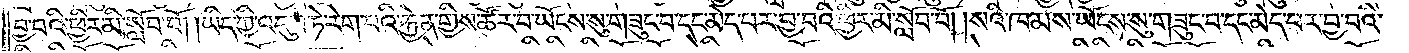བྱ་བའི་ཕྱིར་མི་སློབ་བོ། །ཡིད་ཀྱི་འདུས་ཏེ་རེག་པའི་རྐྱེན་གྱིས་ཚོར་བ་ཡོངས་སུ་གཟུང་བ་དང་མེད་པར་བྱ་བའི་ཕྱིར་མི་སློབ་བོ། །སའི་ཁམས་ཡོངས་སུ་གཟུང་བ་དང་མེད་པར་བྱ་བའི་
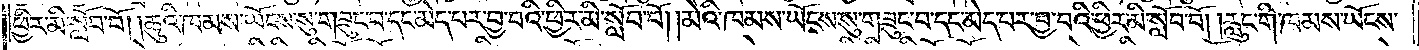ཕྱིར་མི་སློབ་བོ། །ཆུའི་ཁམས་ཡོངས་སུ་གཟུང་བ་དང་མེད་པར་བྱ་བའི་ཕྱིར་མི་སློབ་བོ། །མེའི་ཁམས་ཡོངས་སུ་གཟུང་བ་དང་མེད་པར་བྱ་བའི་ཕྱིར་མི་སློབ་བོ། །རླུང་གི་ཁམས་ཡོངས་
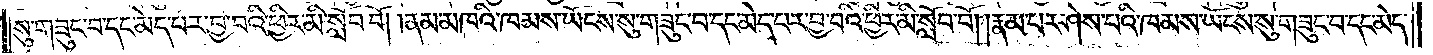སུ་གཟུང་བ་དང་མེད་པར་བྱ་བའི་ཕྱིར་མི་སློབ་བོ། །ནམ་མཁའི་ཁམས་ཡོངས་སུ་གཟུང་བ་དང་མེད་པར་བྱ་བའི་ཕྱིར་མི་སློབ་བོ། །རྣམ་པར་ཤེས་པའི་ཁམས་ཡོངས་སུ་གཟུང་བ་དང་མེད་
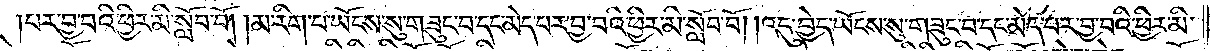པར་བྱ་བའི་ཕྱིར་མི་སློབ་བོ། །མ་རིག་པ་ཡོངས་སུ་གཟུང་བ་དང་མེད་པར་བྱ་བའི་ཕྱིར་མི་སློབ་བོ། །འདུ་བྱེད་ཡོངས་སུ་གཟུང་བ་དང་མེད་པར་བྱ་བའི་ཕྱིར་མི་
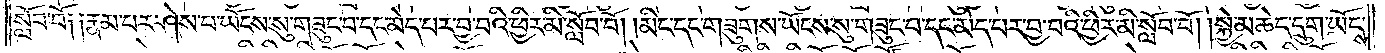སློབ་བོ། །རྣམ་པར་ཤེས་པ་ཡོངས་སུ་གཟུང་བ་དང་མེད་པར་བྱ་བའི་ཕྱིར་མི་སློབ་བོ། །མིང་དང་གཟུགས་ཡོངས་སུ་གཟུང་བ་དང་མེད་པར་བྱ་བའི་ཕྱིར་མི་སློབ་བོ། །སྐྱེ་མཆེད་དྲུག་ཡོངས་
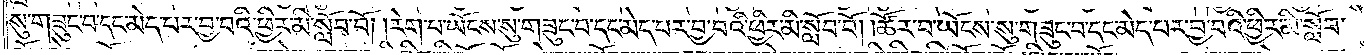སུ་གཟུང་བ་དང་མེད་པར་བྱ་བའི་ཕྱིར་མི་སློབ་བོ། །རེག་པ་ཡོངས་སུ་གཟུང་བ་དང་མེད་པར་བྱ་བའི་ཕྱིར་མི་སློབ་བོ། །ཚོར་བ་ཡོངས་སུ་གཟུང་བ་དང་མེད་པར་བྱ་བའི་ཕྱིར་མི་སློབ་
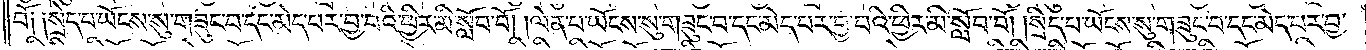བོ༑ ༑སྲེད་པ་ཡོངས་སུ་གཟུང་བ་དང་མེད་པར་བྱ་བའི་ཕྱིར་མི་སློབ་བོ། །ལེན་པ་ཡོངས་སུ་གཟུང་བ་དང་མེད་པར་བྱ་བའི་ཕྱིར་མི་སློབ་བོ། །སྲིད་པ་ཡོངས་སུ་གཟུང་བ་དང་མེད་པར་བྱ་
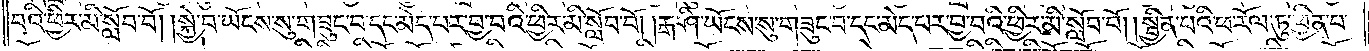བའི་ཕྱིར་མི་སློབ་བོ། །སྐྱེ་བ་ཡོངས་སུ་གཟུང་བ་དང་མེད་པར་བྱ་བའི་ཕྱིར་མི་སློབ་བོ། །རྒ་ཤི་ཡོངས་སུ་གཟུང་བ་དང་མེད་པར་བྱ་བའི་ཕྱིར་མི་སློབ་བོ། །སྦྱིན་པའི་ཕ་རོལ་ཏུ་ཕྱིན་པ་
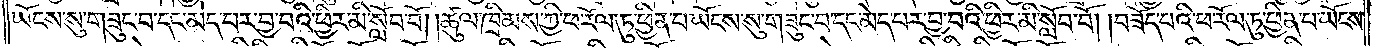ཡོངས་སུ་གཟུང་བ་དང་མེད་པར་བྱ་བའི་ཕྱིར་མི་སློབ་བོ། །ཚུལ་ཁྲིམས་ཀྱི་ཕ་རོལ་ཏུ་ཕྱིན་པ་ཡོངས་སུ་གཟུང་བ་དང་མེད་པར་བྱ་བའི་ཕྱིར་མི་སློབ་བོ། །བཟོད་པའི་ཕ་རོལ་ཏུ་ཕྱིན་པ་ཡོངས་
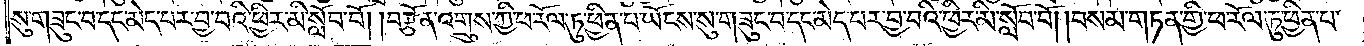སུ་གཟུང་བ་དང་མེད་པར་བྱ་བའི་ཕྱིར་མི་སློབ་བོ། །བརྩོན་འགྲུས་ཀྱི་ཕ་རོལ་ཏུ་ཕྱིན་པ་ཡོངས་སུ་གཟུང་བ་དང་མེད་པར་བྱ་བའི་ཕྱིར་མི་སློབ་བོ། །བསམ་གཏན་གྱི་ཕ་རོལ་ཏུ་ཕྱིན་པ་
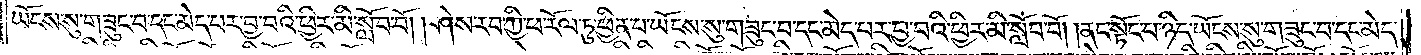ཡོངས་སུ་གཟུང་བ་དང་མེད་པར་བྱ་བའི་ཕྱིར་མི་སློབ་བོ། །ཤེས་རབ་ཀྱི་ཕ་རོལ་ཏུ་ཕྱིན་པ་ཡོངས་སུ་གཟུང་བ་དང་མེད་པར་བྱ་བའི་ཕྱིར་མི་སློབ་བོ། །ནང་སྟོང་པ་ཉིད་ཡོངས་སུ་གཟུང་བ་དང་མེད་
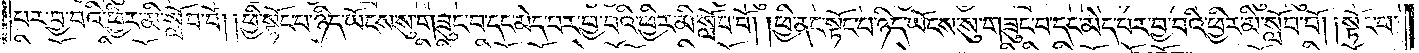པར་བྱ་བའི་ཕྱིར་མི་སློབ་བོ། །ཕྱི་སྟོང་པ་ཉིད་ཡོངས་སུ་གཟུང་བ་དང་མེད་པར་བྱ་བའི་ཕྱིར་མི་སློབ་བོ། །ཕྱི་ནང་སྟོང་པ་ཉིད་ཡོངས་སུ་གཟུང་བ་དང་མེད་པར་བྱ་བའི་ཕྱིར་མི་སློབ་བོ། །སྟོང་པ་
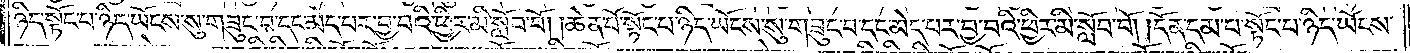ཉིད་སྟོང་པ་ཉིད་ཡོངས་སུ་གཟུང་བ་དང་མེད་པར་བྱ་བའི་ཕྱིར་མི་སློབ་བོ། །ཆེན་པོ་སྟོང་པ་ཉིད་ཡོངས་སུ་གཟུང་བ་དང་མེད་པར་བྱ་བའི་ཕྱིར་མི་སློབ་བོ། །དོན་དམ་པ་སྟོང་པ་ཉིད་ཡོངས་
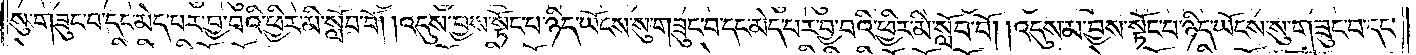སུ་གཟུང་བ་དང་མེད་པར་བྱ་བའི་ཕྱིར་མི་སློབ་བོ། །འདུས་བྱས་སྟོང་པ་ཉིད་ཡོངས་སུ་གཟུང་བ་དང་མེད་པར་བྱ་བའི་ཕྱིར་མི་སློབ་བོ། །འདུས་མ་བྱས་སྟོང་པ་ཉིད་ཡོངས་སུ་གཟུང་བ་དང་
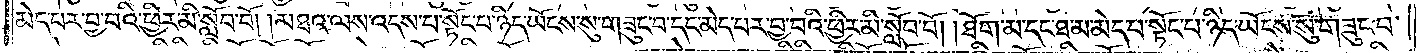མེད་པར་བྱ་བའི་ཕྱིར་མི་སློབ་བོ། །མཐའ་ལས་འདས་པ་སྟོང་པ་ཉིད་ཡོངས་སུ་གཟུང་བ་དང་མེད་པར་བྱ་བའི་ཕྱིར་མི་སློབ་བོ། །ཐོག་མ་དང་ཐ་མ་མེད་པ་སྟོང་པ་ཉིད་ཡོངས་སུ་གཟུང་བ་
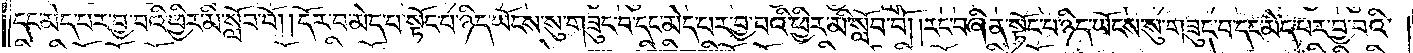དང་མེད་པར་བྱ་བའི་ཕྱིར་མི་སློབ་བོ། །དོར་བ་མེད་པ་སྟོང་པ་ཉིད་ཡོངས་སུ་གཟུང་བ་དང་མེད་པར་བྱ་བའི་ཕྱིར་མི་སློབ་བོ། །རང་བཞིན་སྟོང་པ་ཉིད་ཡོངས་སུ་གཟུང་བ་དང་མེད་པར་བྱ་བའི་
